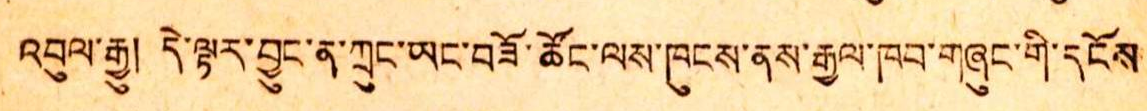འབུལ་རྒྱུ། དེ་ལྟར་བྱུང་ན་ཀྲུང་ཡང་བཟོ་ཚོང་ལས་ཁུངས་ནས་རྒྱལ་ཁབ་གཞུང་གི་དངོས
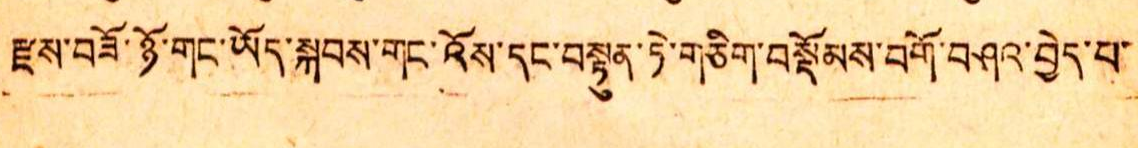རྫས་བཟོ་ཉོ་གང་ཡོད་སྐབས་གང་འོས་དང་བསྟུན་ཏེ་གཅིག་བསྡོམས་བགོ་བཤའ་བྱེད་བ་
